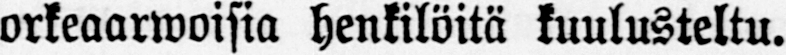orkeaarwoisia henkilöitä kuulusteltu.
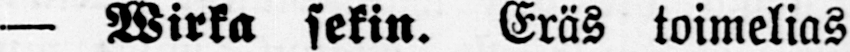— Wirka sekin. Eräs toimelias
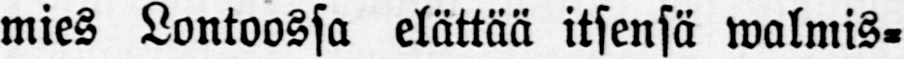mies Lontoossa elättää itsensä walmis-
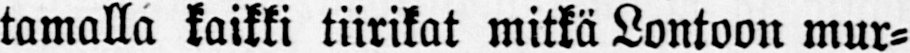tamalla kaikki tiirikat mitkä Lontoon mur-
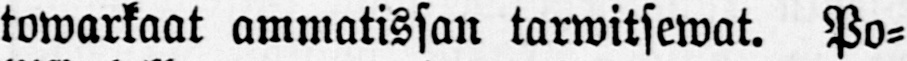towarkaat ammatissan tarwitsewat. Po-
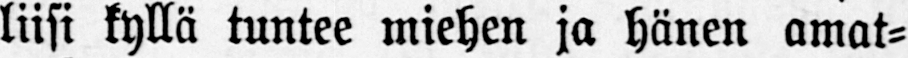liisi kyllä tuntee miehen ja hänen amat-
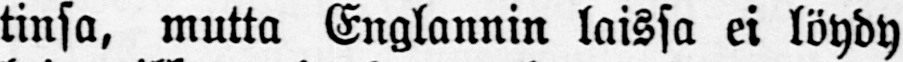tinsa, mutta Englannin laissa ei löydy
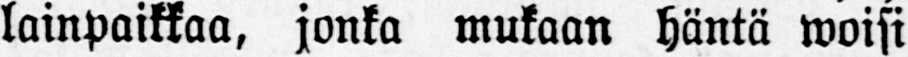lainpaikkaa, jonka mukaan häntä woisi
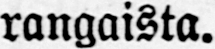rangaista.
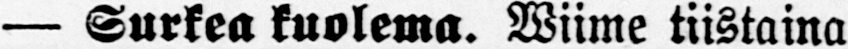— Surkea kuolema. Wiime tiistaina
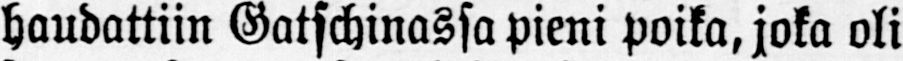haudattiin Gatschinassa pieni poika, joka oli
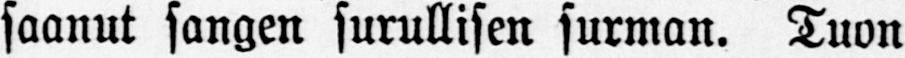saanut sangen surullisen surman. Tuon
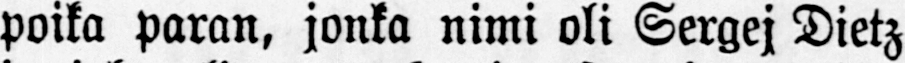poika paran, jonka nimi oli Sergej Dietz
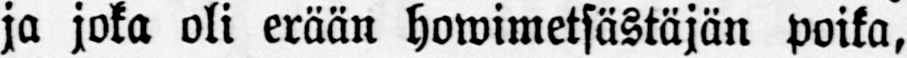ja joka oli erään howimetsästäjän poika,
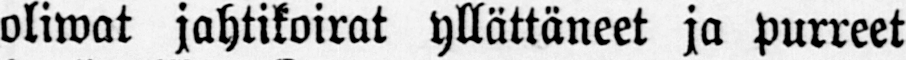oliwat jahtikoirat yllättäneet ja purreet
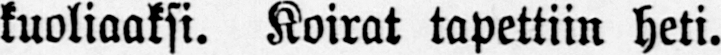kuoliaaksi. Koirat tapettiin heti.
